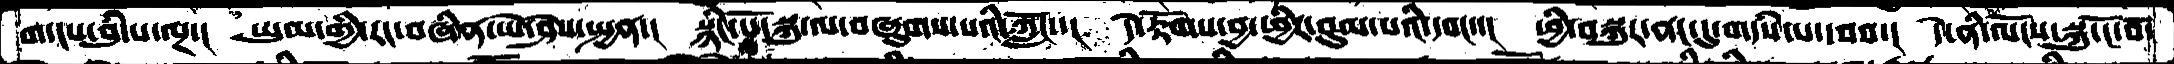གདངས་བུཾ་པ་ལྔ་།  ཡུལ་གྱི་རང་བཞིན་ཡེ་ཤེས་སྤྱན་།  སྙིང་པོ་སྐུ་ལ་བཞུགས་པའི་ཀློང་་།  དེ་རྟོགས་བྱ་ཕྱིར་བུམ་པའི་དབང་་།  ཕྱི་བསྐུར་ནང་དུ་གདཾས་པ་དབབ་།  དེ་ནི་ལོངས་སྐུ་ངོ་བོ་
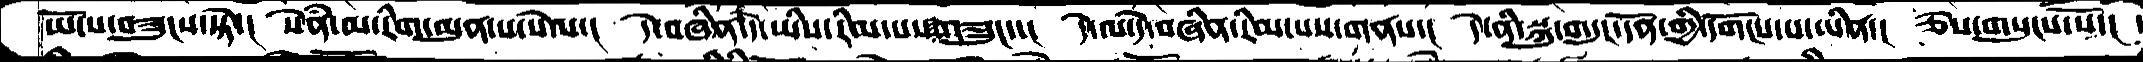ཡོངས་བཟུངས་སྟེ་།  སེནཾ་མ་རིག་མུན་པ་སེལ་།  དེ་བཞིན་དེ་ཡིས་རིམ་པས་གཟུང་་།  དེ་ལ་དེ་བཞིན་རིམ་པས་གནས་།  དེ་ནི་སྐུ་གདུང་དོན་གྱི་དགོངས་པ་ཡིན་།  ཅེས་གསུངས་སོ་།
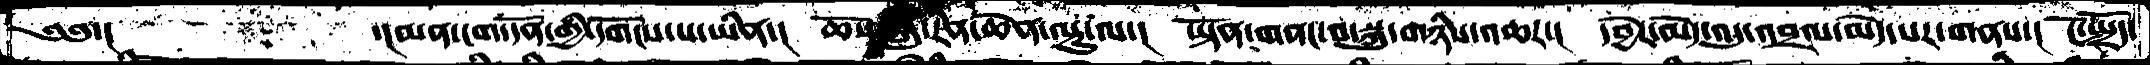༄༅་།         ་།མན་ངག་དོན་གྱི་དགོངས་པ་ཡིན་།  ཆོས་སྐུ་རིན་ཆེན་ལྟུ་ལ་། ཡྟོན་གནང་བ་སྐུ་གཉིས་འཆར་།  དབྱེར་མེད་འདུ་འབྲལ་མེད་པར་གནས་།  ངོ་སྤྲོད་
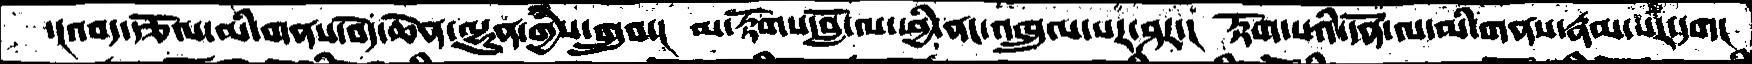་།འབད་རྩོལ་མི་གནས་བདེ་ཆེན་ལྷུན་གྱིས་གྲུབ་།  མ་རྟོགས་བློ་ལ་ཕྱི་ནང་འཁྲུལ་པར་ཤར་།  རྟོག་པའི་དོན་ལ་མི་གནས་རྣམ་པར་དག།
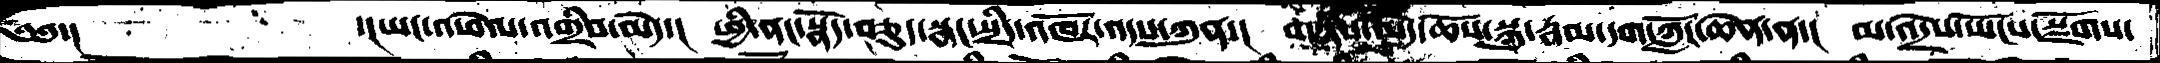༄༅་།  ་།ཡང་འཕེལ་འགྲིབ་མེད་།  ཕྱི་ནང་སྣོད་བཅུད་སྣང་སྲིད་འཁོར་འདས་ཀུན་།  གཉིས་མེད་ཆོས་སྐུ་རྣམ་དག་ཀློང་ཆེན་ན་།  མ་འདྲེས་ཡོངས་སྫོགས་
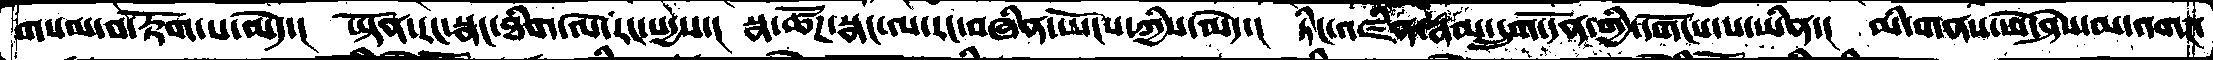གསལ་བ་རྟོག་པ་མེད་།   ཡྟོན་རང་སྣང་ཐིག་ལེ་རང་སདྱས་།  སྣ་ཚོཌ་སྣང་ལ་རང་བཞིན་ཡོངས་ཀྱིས་མེད་།  ཏིང་འཛིན་རྣམ་དྲུག་དོན་གྱི་དགོངས་པ་ཡིན་།  མི་གནས་ཡེ་ཤེས་མ་འགཌ་
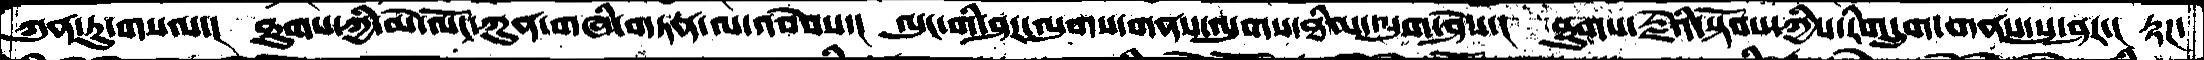ཀུན་ཏུ་གསལ་།  ཐུགས་ཀྱི་མེ་ལོང་ཀུན་གཞི་གཏན་ལ་འབེབས་།  ལུང་གི་ཤར་ལུགས་གནས་ལུགས་ཐིམ་ལུག་ཤེས་།  ཐུགས་རྗེའི་སྟོབས་ཀྱིས་རིགདྲུག་གནས་སུ་ཤར་།  རྟཌ་
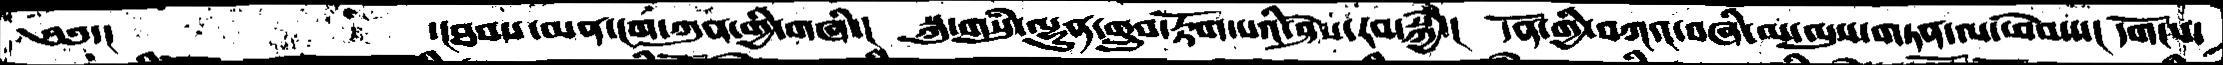༄༅་།      ་།ཐབས་མན་ངག་ཀུན་གྱི་གཞི་།  སྐུ་གསུཾ་ལྷུན་གྲུབ་རྟོག་པའི་ཤེས་རབ་སྐྱེ་།  དོན་གྱི་བཀའ་བཞི་མ་ལུས་གཏན་ལ་ཕེབས།  དགོངས་
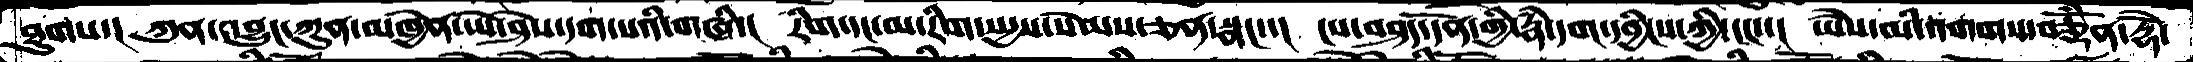ཐུགས་།   ཀུན་འབྱུང་ཀུན་མཁྱེན་ཡེ་ཤེས་དག་པའི་གཞི་།   རིག་དང་མ་རིག་སདྱས་སེམས་ཅན་སྣང་་།  ངས་བཤད་དོན་གྱི་རྣཾ་དག་དབྱིངས་ཀྱི་ངང་་།  ཡཻས་མི་འགགས་བཅྡོཾན་རྡོེ་
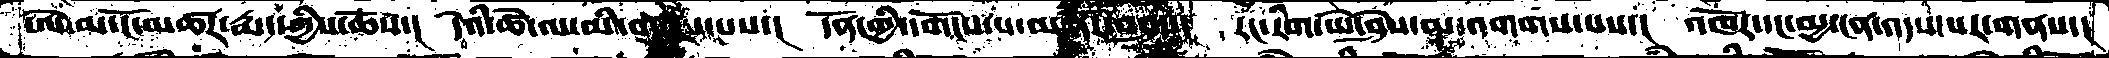ཨེ་མ་ངོ་མཚར་རྨད་གྱིས་ཆོས་།  དེའི་ཚེ་ལ་མི་གསུང་པས་།  དོན་གྱི་དགོངས་པ་མ་ནོར་བཤད་།  རང་རིག་ཡེ་ཤེས་མ་འགགས་པས་།  འཁོར་དང་མྱ་ངན་འདས་པར་གནས་།
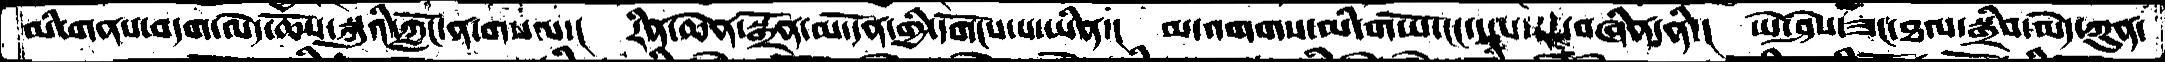མི་གནས་བདག་མེད་ཆོས་སྐུའི་ཀློང་ན་གསལ་།  རིན་ཆེན་སྒྲོན་མ་དོན་གྱི་དགོངས་པ་ཡིན་།  མ་འགགས་མི་གཡོ་ངང་ངལ་རང་བཞིན་ནི་།  ཡེ་ཤེས་ཟང་ཐལ་སྒྲིབ་མེད་ཀུན་
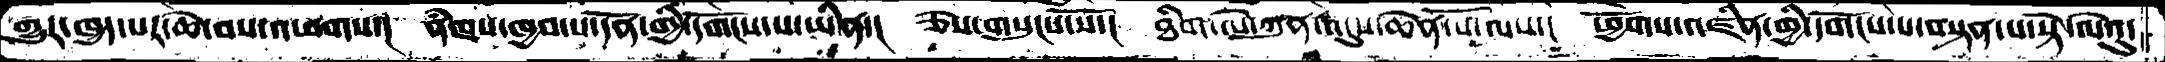གྱུར་ཁྱད་པར་ཆེ་བས་འཕགས་།  ནཾཁས་ཁྱབ་པ་དོན་གྱི་དགོངས་པ་ཡིན་།  ཅེས་གསུངས་སོ་།  ཐིག་ལེ་ཀུན་འདུས་ཆེན་པོ་ལས་།  ཕྱོགས་འཛིན་གྱི་དགོངས་པ་བསྟན་པ་སྟེ་ལེའུ་
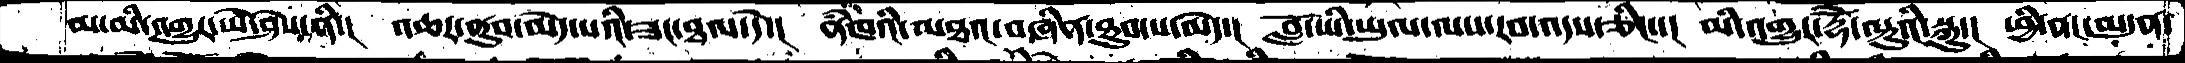མ་མི་འགྱུར་ཡེ་ཤེས་ནི་།  འཆར་ནུབ་མེད་པའི་ཟང་ཐལ་དེ་།  ནཾཁའི་མཐའ་བཞིན་ཐུག་པ་མེད་།  བློ་ཡི་ཡུལ་ལས་རབ་འདས་ཅིང་་།  མི་འགྱུར་རྡོེ་ལྟུའི་སྐུ་།  ཕྱི་ནང་མདུན་
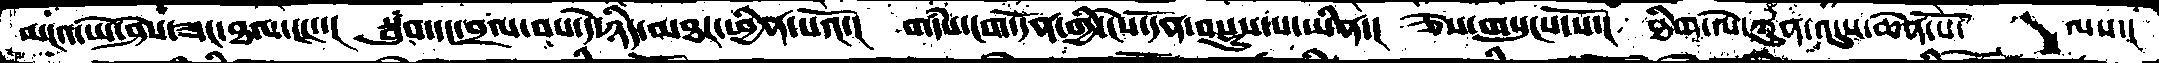མངའ་ཡེ་ཤེས་ཟང་ཐལ་ངང་་།  སྦུབ་དང་བྲལ་བས་དེ་ཉིད་མཐར་ཕྱིན་པའོ་།  གདཾས་ངག་དོན་གྱི་ངེས་དོན་བསྡུས་པ་ཡིན་།  ཅེས་གསུངས་སོ་།  ཐིག་ལེ་ཀུན་འདུས་ཆེན་པོ་    ལས་།
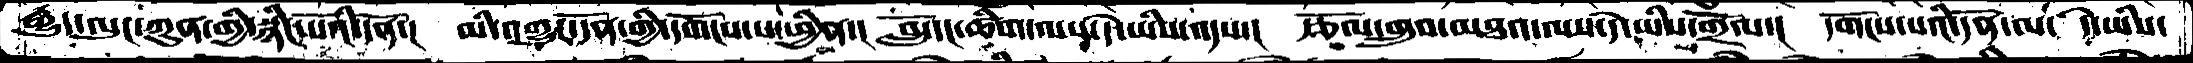རྒྱུད་ལུང་ཀུན་གྱི་སྙིང་པོའི་དོན་།  མི་འགྱུར་དོན་གྱི་དགོངས་པ་ཕྱིན་།  བློ་དང་ཚིག་ལས་དེ་ཡིས་འདས་།  རྩོལ་གྲུབ་མཐའ་ལས་དེ་ཡིས་གྲོལ་།  དགོངས་པའི་དོན་ལ་  དེ་ཡིས་
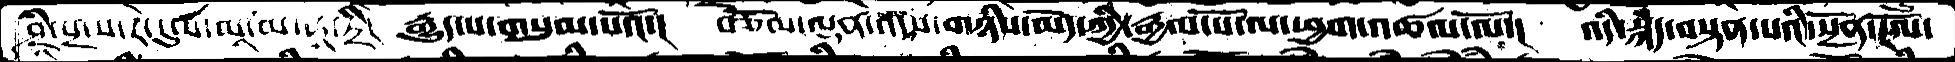ཤྲཱི་པྲ་ས་རེ་དུ་ས་ལཱ་མ་ཧཱ་ཏྲི། རྒྱུད་ས་གསུམ་པའོ་། བཅོམ་ལྡན་འདས་གཉིས་མེད་ཀྱི་རྒྱལ་པོ་ལ་ཕྱག་འཚལ་ལོ་།  འདི་སྐད་བསྟན་པའི་སྔོན་རོལ་
